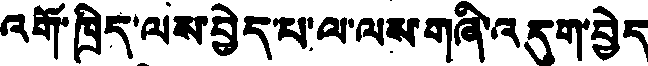འགོ་ཁྲིད་ལས་བྱེད་པ་ལ་ལས་གཞི་འདུག་བྱེད་
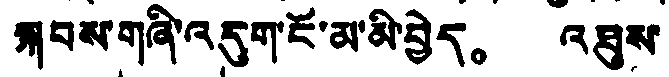སྐབས་གཞི་འདུག་ངོ་མ་མི་བྱེད。 འཐུས་
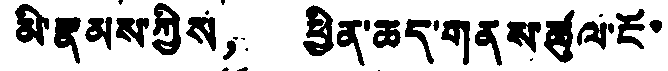མི་རྣམས་ཀྱིས， ཕྱིན་ཆད་གནས་ཚུལ་ངོ་
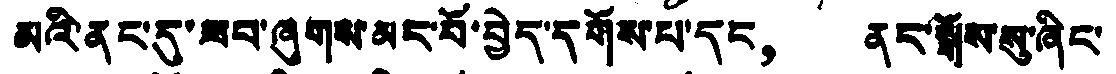མའི་ནང་དུ་ཟབ་ཞུགས་མང་པོ་བྱེད་དགོས་པ་དང， ནང་སྒོས་སུ་ཞིང་
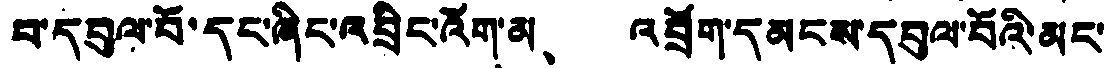པ་དབུལ་བོ་དང་ཞིང་འབྲིང་འོག་མ、 འབྲོག་དམངས་དབུལ་བོའི་མང་
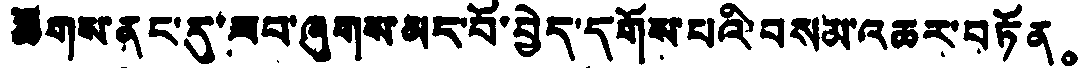ཚོགས་ནང་དུ་ཟབ་ཞུགས་མང་པོ་བྱེད་དགོས་པའི་བསམ་འཆར་བཏོན。
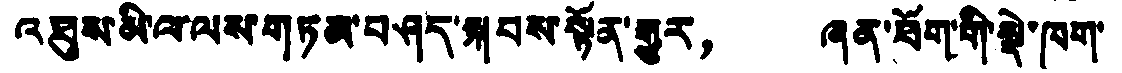འཐུས་མི་ལ་ལས་གཏམ་བཤད་སྐབས་སྟོན་རྒྱུར， ཞན་ཐོག་གི་སྡེ་ཁག་
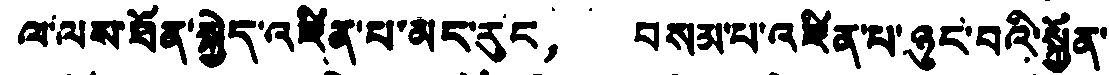ལ་ལས་ཐོན་སྐྱེད་འཛིན་པ་མང་རུང， བསམ་པ་འཛིན་པ་ཉུང་བའི་སྐྱོན་
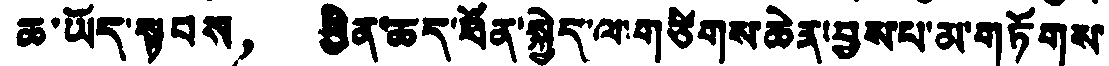ཆ་ཡོད་སྟབས， ཕྱིན་ཆད་ཐོན་སྐྱེད་ལ་གཙིགས་ཆེན་བྱས་པ་མ་གཏོགས་
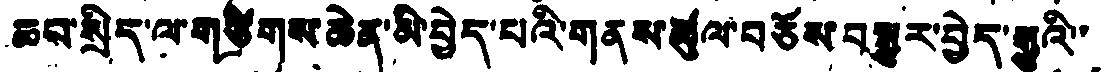ཆས་སྲིད་ལ་གཙིགས་ཆེན་མི་བྱེད་པའི་གནས་ཚུལ་བཅོས་བསྒྱུར་བྱེད་རྒྱུའི་་
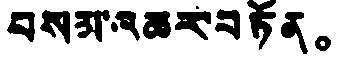བསམ་འཆར་བཏོན。
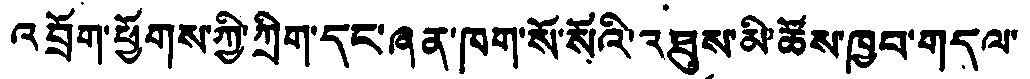འབྲོག་ཕྱོགས་ཀྱི་ཀྲིག་དང་ཞན་ཁག་སོ་སོའི་འཐུས་མི་ཚོས་ཁྱབ་གདལ་
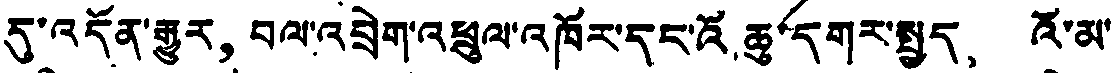དུ་འདོན་རྒྱུར， བལ་འབྲེག་འཕྲུལ་འཁོར་དང་འོ ཆུ་དགར་སྤྱད， འོ་མ་
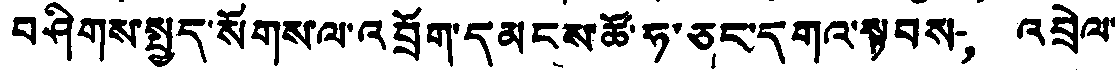བཤིགས་སྤྱད་སོགས་ལ་འབྲོག་དམངས་ཚོ་ཧ་ཅང་དགའ་སྟབས， འབྲེལ་
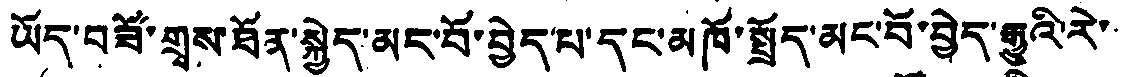ཡོད་བཟོ་གྲྭས་ཐོན་སྐྱེད་མང་པོ་བྱེད་པ་དང་མཁོ་སྤྲོད་མང་བོ་བྱེད་རྒྱུའི་རེ་་
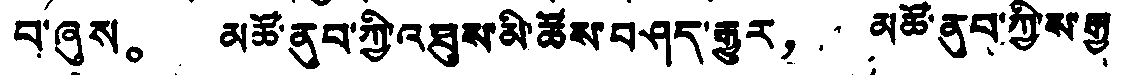བ་ཞུས。 མཚོ་ནུབ་ཀྱི་འཐུས་མི་ཚོས་བཤད་རྒྱུར， མཚོ་ནུབ་ཀྱི་ས་རྒྱ་
